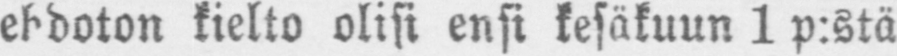ebdoton kielto olisi ensi kesäkuun 1 p:stä
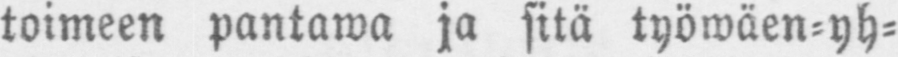toimeen pantawa ja sitä työwäen-yh-
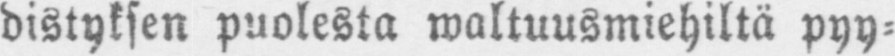distyksen puolesta waltuusmiehiltä pyy-
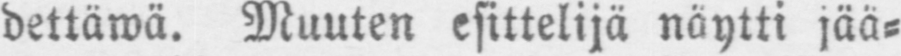dettäwä. Meuuten esittelijä näytti jää-
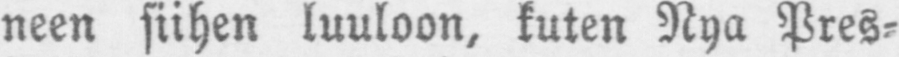neen siihen luuloon, kuten Nya Pres-
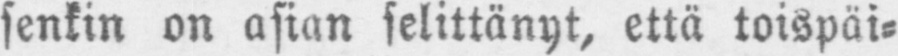sinkin on asian selittänyt, että toispäi-
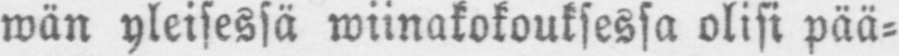wän yleisessä wiinakokouksessa olisi pää-
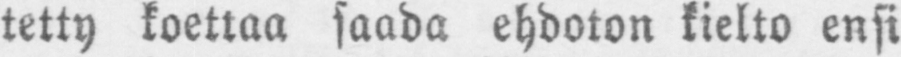tetty koettaa saada ehdoton kielto ensi
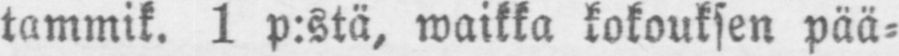taminik. 1 p:stä, waikka kokouksen pää-
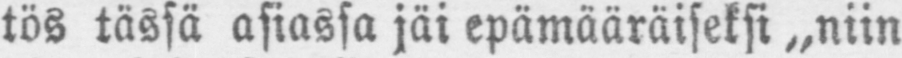tös tässä asiassa jäi epämääräisiksi „niin
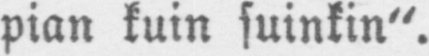pian kuin suinkin".
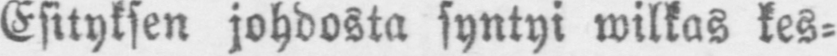Esityksen johdosta syntyi wilkas kes-
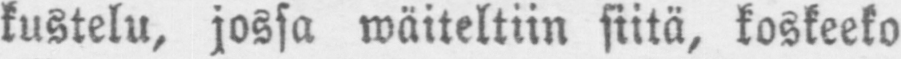kustelu, jossa wäiteltiin siitä, koskeeko
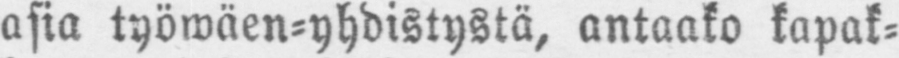asia työwäen-yhdistystä, antaako kapak-
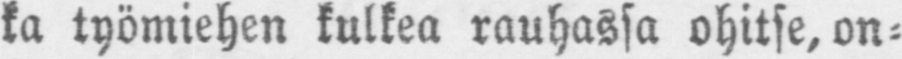ka työmiehen kulkea rauhassa ohitse, on-
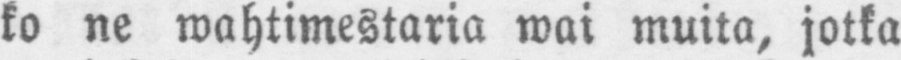ko ne wahtimestaria wai muita, jotka
